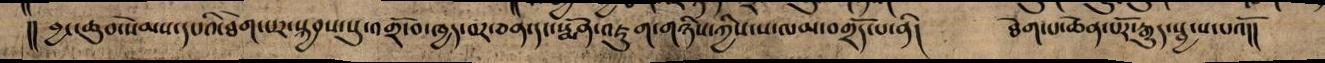།། བྱང་ཆུབ་སེམས་དཔའི་ཐེག་པར་སྐྱབས་སུ་འགྲོ་བ་ཁྱད་བར་ཅན་དང་སྨོན་འཇུག་གཉིས་ཀྱིས་ས་ལམ་བགྲོད་པ་ནི། ཐེག་པ་ཆེན་པོར་རྒྱུད་སྦྱངས་པའོ།།
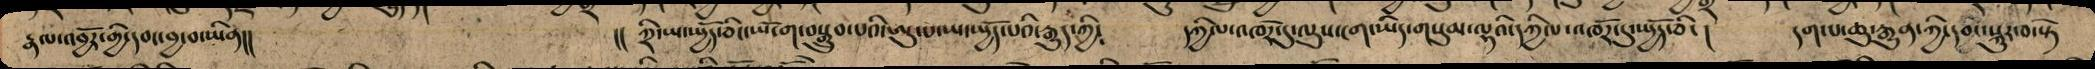རྣལ་འབྱོར་གྱི་དབང་བྱ་བ་ཡིན།། །། ཀྲི་ཡ་སྤྱོད་ཅིང་ཡོ་ག་བསྒྲུབ་པའི་ཨུ་པ་ཡ་སྤྱོད་པའི་རྒྱུད་ཀྱི༴ དཀྱིལ་འཁོར་དུ་ལུས་ངག་ཡིད་གསུམ་ལྷའི་དཀྱིལ་འཁོར་དུ་སྤྱོད་ཅིང། དག་པ་ཆུ་རྒྱུན་ཀྱི་དབང་སྐུར་བ་སྟེ
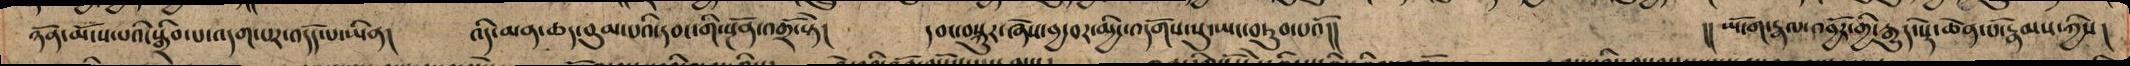ཉོན་མོངས་པའི་སྒྲིབ་པ་འདག་པར་འདོད་པ་ཡིན། འདི་མན་ཆད་བུམ་པའི་དབང་གི་སྔོན་འགྲོ་སྟེ། དབང་བསྐུར་ཞེས་བུ་བར་མྱི་འདོགས་སུ་ཡང་བཏུབ་པའོ།། །།ཡོ་ག་རྣལ་འབྱོར་གྱི་རྒྱུད་སྡེ་ཆེན་པོ་རྣམས་ཀྱིས།
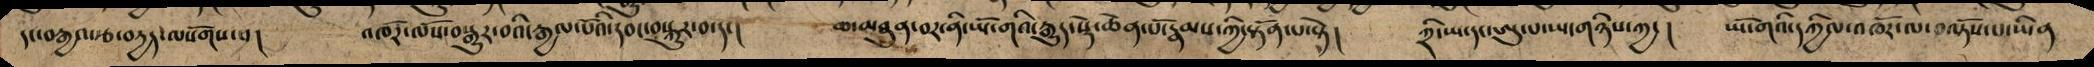དང་བརྒྱའ་རྩ་བརྱད་ལསོགས་པ། འཁོར་ལོས་བསྒྱུར་བའི་རྒྱལ་པོའི་དབང་བསྐུར་བ་དང། ཆ་མཐུན་བར་ནི་ཡོ་གའི་རྒྱུད་སྡེ་ཆེན་པོ་རྣམས་ཀྱི་སྟོན་པ་སྟེ། ཀྲི་ཡ་དང་ཨུ་པ་ཡ་གཉིས་ཀྱང། ཡོ་གའི་དཀྱིལ་འཁོར་ལ་བལྟོས་པ་ཡིན
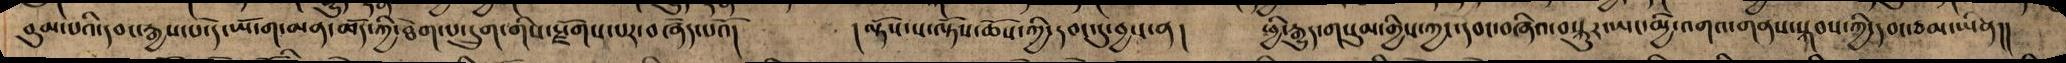བུམ་པའི་དབང་རྒྱས་པ་དེ་ཡོ་ག་མན་ཆོད་ཀྱི་ཐེག་པ་དྲུག་གིས་སྫོགས་པར་བཞེད་པའོ། །ལྟོས་ས་ལྟོས་ཆོས་ཀྱི་དབང་དུ་བྱས་ན། ཕྱི་རྒྱུད་གསུམ་གྱིས་ཀྱང་དབང་བཞིའ་བསྐུར་ཡང་མྱི་འགའ་གནས་སྐབས་ཀྱི་དབང་ཙམ་ཡིན།།
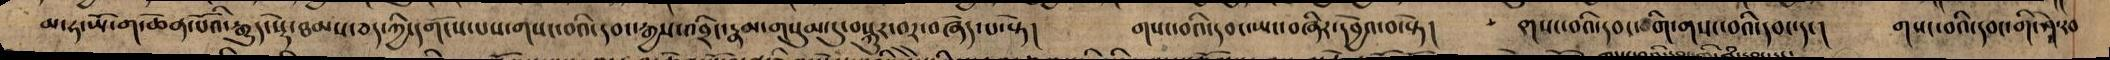མ་ཧ་ཡོ་ག་ཆེན་པོའི་རྒྱུད་སྡེ་ཐམས་ཅད་ཀྱི་དགོངས་པས་གསང་བའི་དབང་རྒྱས་འབྲིང་རྣམ་གསུམ་དུ་བསྐུར་བར་བཞེད་པ་སྟེ། གསང་བའི་དབང་ཡང་བཞིར་དབྱེའ་བ་སྟེ། གསང་བའི་དབང་གི་གསང་བའི་དབང་དང། གསང་བའི་དབང་གི་ཤེ་རབ
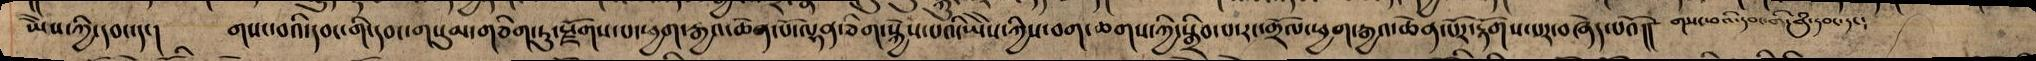ཡཻས་ཀྱི་དབང་དང། གསང་བའི་དབང་གི་དབང་གསུམ་གཅིག་ཏུ་སྫོགས་པ་ཕྱག་རྒྱའ་ཆེན་པོ་ལྷན་ཅིག་སྐྱེས་པའི་ཡཻས་ཀྱིས་བག་ཆགས་ཀྱི་སྒྲིབ་པ་རང་གྲོལ་ཕྱག་རྒྱའ་ཆེན་པོར་རྟོགས་པར་བཞེད་པའོ།། གསང་བའི་དབང་གི་བུཾ་དབང་དང༴
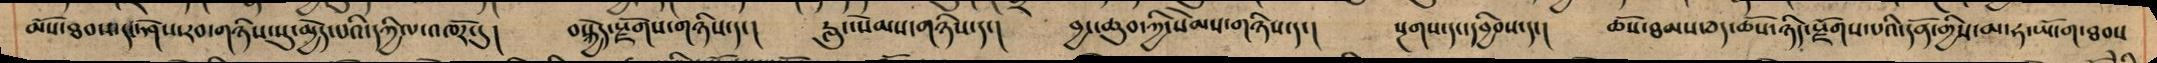མོས་ཐབས་དང་ཤེས་རབ་གཉིས་སུ་མྱེད་པའི་དཀྱིལ་འཁོར་དུ། བསྐྱེད་སྫོགས་གཉིས་དང། རླུང་སེམས་གཉིས་དང། བྱང་ཆུབ་ཀྱི་སེམས་གཉིས་དང། སྔགས་དང་དབྱིབས་དང། ཆོས་ཐམས་ཅད་ཆོས་ཉིད་སྫོགས་པའི་དོན་གྱིས་མ་ཧ་ཡོ་ག་ཐབས
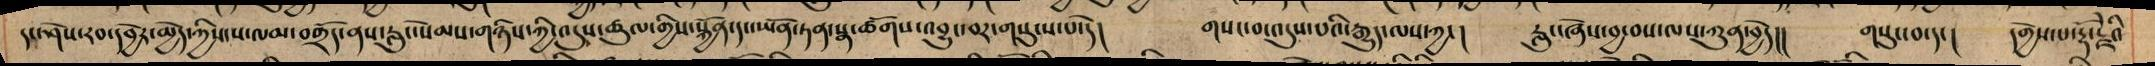དང་ཤེས་རབ་དབྱེར་མྱེད་ཀྱིས་ས་ལམ་བགྲོད་ནས་རླུང་སེམས་གཉིས་ཀྱི་འདུས་ཚུལ་གྱིས་སྐྱོན་དང་ཡོན་ཏན་སྣ་ཚོགས་འབྱུང་བར་གསུངས་པ་དེ། གསང་བ་འདུས་པའི་རྒྱུད་ལས་ཀྱང། རླུང་ཞེས་བྱ་བས་ལས་ཀུན་བྱེད།།གསུང་བ་དང། དགྱེས་པ་རྡོ་རྗེའི
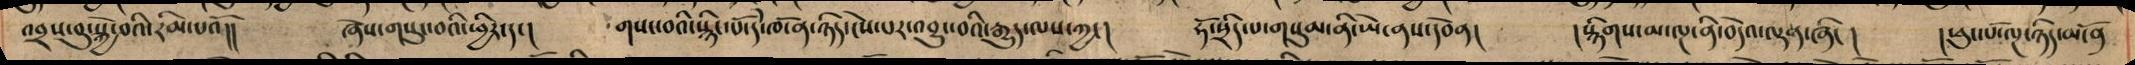འབྲས་བུ་སྐྱེ་བའི་རིམ་པའོ།། ཞེས་གསུང་བའི་ཕྱིར་དང། གསང་བའི་སྙིང་པོ་དེ་ཁོ་ན་ཉིད་ངེས་པར་འབྱུང་བའི་རྒྱུད་ལས་ཀྱང། ཧོ་སྲིད་པ་གསུམ་ནི་ཡེ་ནས་དབེན། །སྙིགས་མ་ལྔ་ནི་བདེའ་ལྡན་ཞིང། །ཕུང་པོ་ལྔ་ཉིད་མངོན
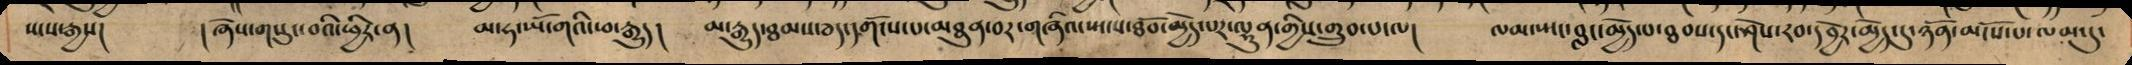སངས་རྒྱས། །ཞེས་གསུང་བའི་ཕྱིར་ན། མ་ཧ་ཡོ་གའི་ཕ་རྒྱུད། མ་རྒྱུད་ཐམས་ཅད་དགོངས་པ་ཥཏུན་བར་གཞིའ་སྤངས་ཐོབ་མྱེད་པར་ལྷུན་གྱིས་གྲུབ་པ་ལ། ལམ་སྤང་བླང་མྱེད་པ་ཐབས་དང་ཤེས་རབ་དབྱེར་མྱེད་དུ་ཉོན་མོངས་པ་ལམ་དུ་
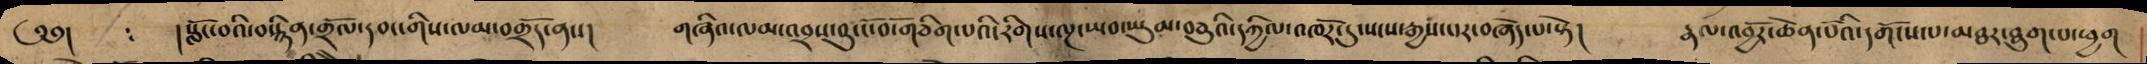༄༅། །སློང་བའི་བསྙིན་གྲོལ་དབང་གིས་ལམ་བགྲོད་ནས། གཞིའ་ལམ་འབྲས་བུ་ངོ་བོ་གཅིག་པའི་རིགས་ལྔ་ཡབ་ཡུམ་བཅུའི་དཀྱིལ་འཁོར་དུསངས་རྒྱས་པར་བཞེད་པ་སྟེ། རྣལ་འབྱོར་ཆེན་པོའི་དགོངས་པ་མཐར་ཐུག་པ་ཕྱག
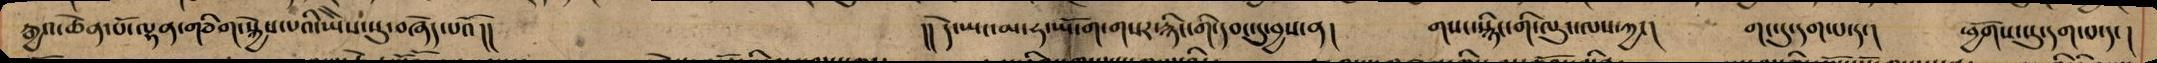རྒྱའ་ཆེན་པོ་ལྷན་གཅིག་སྐྱེས་པའི་ཡཻས་སུ་བཞེད་པའོ།། །།དེ་ཡང་མ་ཧ་ཡོ་ག་གསར་རྙིང་གི་དབང་དུ་བྱས་ན། གསང་སྙིང་གི་ལུང་ལས་ཀྱང། གང་དུ་དག་པ་དང། ཕྱོགས་སུ་དག་པ་དང།
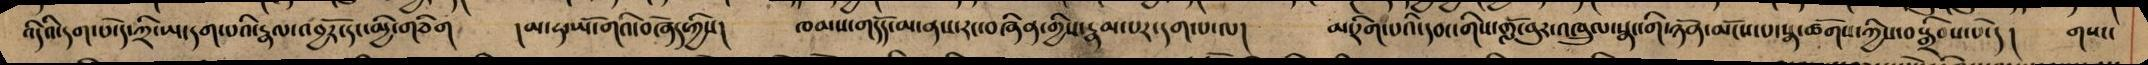འདིའི་དག་པ་དེ་ཀྱི་ཡ་དག་པའི་རྣལ་འབྱོར་དང་མྱི་གཅིག །མ་ཧ་ཡོ་གའི་བཞེད་ཀྱིས། ཁམས་གདོད་མ་ནས་རང་བཞིན་གྱིས་རྣམ་པར་དག་པ་ལ། མ་རིག་པའི་དབང་གིས་གློ་བུར་འཁྲུལ་སྣང་གི་ཉོན་མོངས་པ་སྣ་ཚོགས་ཀྱིས་བསྒྲིབས་པ་དེ། གསང་
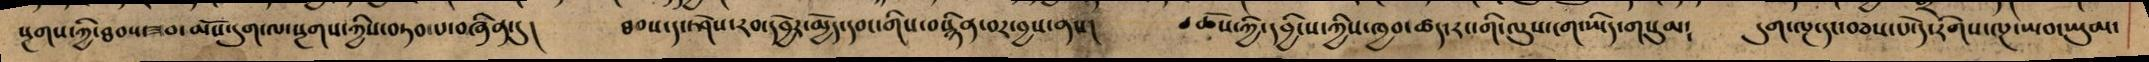སྔགས་ཀྱི་ཐབས་ཟབ་མོས་དུག་ལ་སྔགས་ཀྱིས་བཏབ་པ་བཞིན་དུ། ཐབས་དང་ཤེས་རབ་དབྱེར་མྱེད་དབང་གིས་བསྙིན་བར་བྱས་ནས། ཆོས་ཀྱི་དབྱིངས་ཀྱིས་ཁྱབ་ཚད་རང་གི་ལུས་ངག་ཡིད་གསུམ༴ དུག་ལྔ་དང་བཅས་པ་དེ་རིགས་ལྔ་ཡབ་ཡུམ་
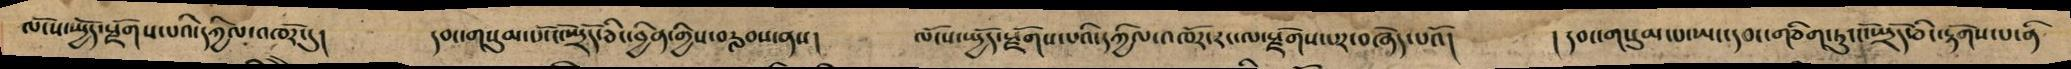ལོངས་སྤྱོད་སྫོགས་པའི་དཀྱིལ་འཁོར་དུ། དབང་གསུམ་པོ་ངོ་སྤྲོད་ཅིང་བྱིན་གྱིས་བརླབས་ནས། ལོངས་སྤྱོད་སྫོགས་པའི་དཀྱིལ་འཁོར་རང་ལ་སྫོགས་པར་བཞེད་པའོ། །དབང་གསུམ་པ་ཡང་དབང་གཅིག་ཏུ་ངོ་སྤྲོད་ཅིང་རྟོགས་པ་ནི
